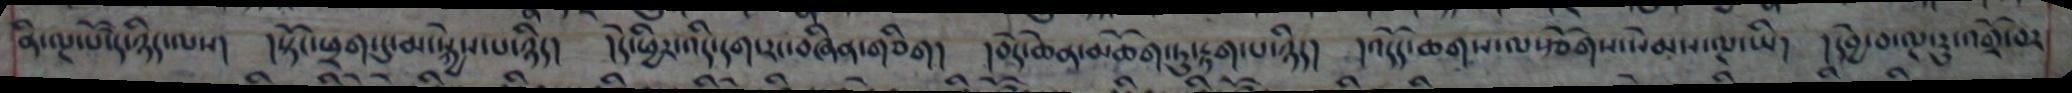ནི་ལྔ་པོ་དེ་ཉིད་ལས། །སྟོང་ཕྲག་དུ་མ་སྐྱེས་པ་ཉིད། །དེ་ཕྱིར་འདི་དག་རང་བཞིན་གཅིག། །བདེ་ཆེན་མཆོག་ཏུ་རྟག་པ་ཉིད། །འདོད་ཆགས་ལ་རྩོགས་སེམས་ལྔ་ཡི། །དབྱེ་བ་ལྔ་རུ་འགྲོ་བར
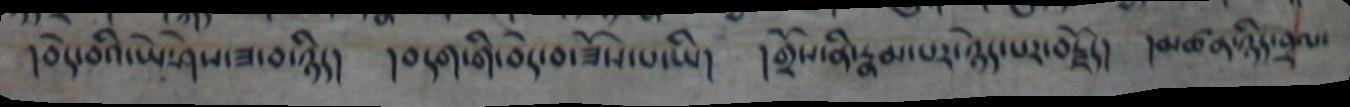།བདེ་བའི་ཡེ་ཤེས་ཟ་བ་ཉིད། །བདག་གི་བདེ་བ་བཟོས་པ་ཡི། །གྲོས་ནི་རྣམ་པར་ཉེད་པར་བརྗོད། །མཚན་ཉིད་བྲལ་
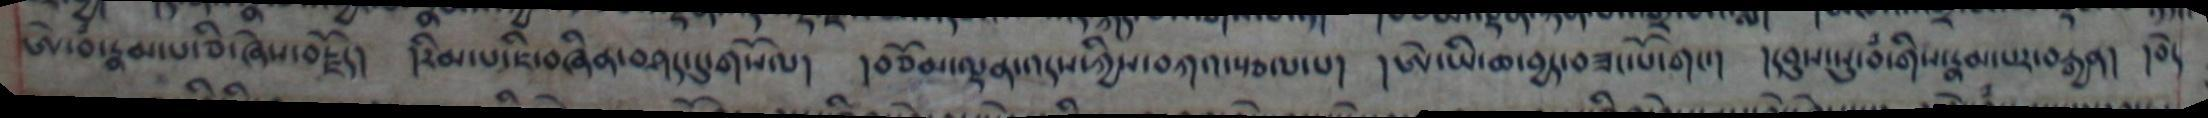ཨེ་བ་རྣམ་པ་ཅི་ཞེས་བརྗོད། །རིམ་པ་ཇི་བཞིན་བཤད་དུ་གསོལ། །བཅོམ་ལྡན་འདས་ཀྱིས་བཀའ་སྩལ་པ། །ཨེ་ཡི་ཆ་བྱད་བཟང་པོ་གང་། །དབུས་སུ་བཾ་གིས་རྣམ་པར་བརྒྱན། །བདེ
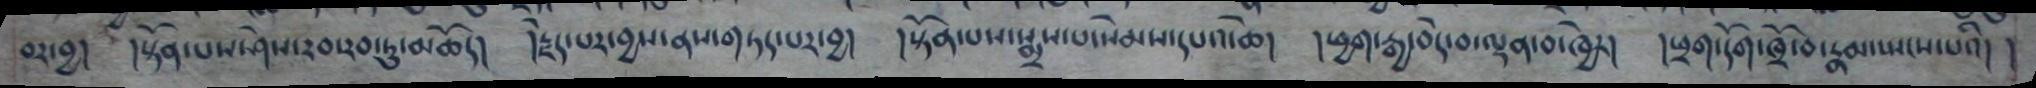བར་བྱ། །སྟོན་པས་ཤེས་རབ་རབ་ཏུ་མཆོད། །རྗེད་པར་བྱས་ནས་གཏད་པར་བྱ། །སྟོན་པས་སྨྲས་པ་སེམས་དཔའ་ཆེ། །ཕྱག་རྒྱ་བདེ་བ་ལྡན་བ་ཁྱེར། །ཕྲག་དོག་ཁྲོ་བ་རྣམ་སྤངས་པའི། །
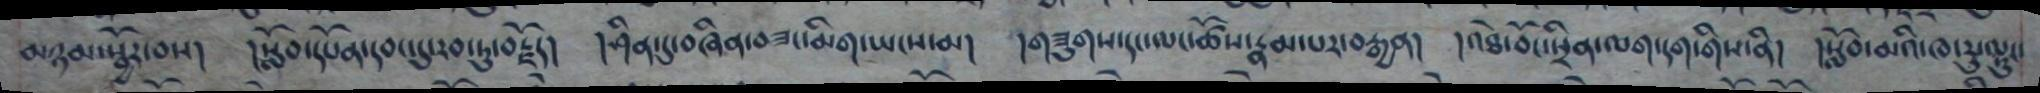མཉམ་སྦྱོར་བས། །སློབ་དཔོན་དབང་དུ་རབ་ཏུ་བརྗོད། །ཤིན་དུ་བཞིན་བཟང་མིག་ཡངས་མ། །གཟུགས་དང་ལང་ཚོས་རྣམ་པར་བརྒྱན། །འཐེ་བོང་སྲིན་ལག་དག་གིས་ནི། །སློབ་མའི་ཁ་རུ་ལྟུང་
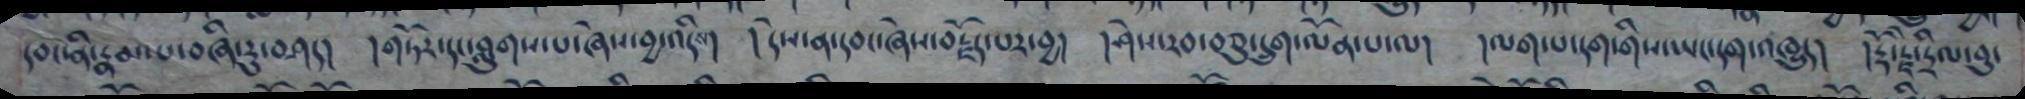དབང་ནི་རྣམ་པ་བཞི་རུ་བཤད། །གཏོར་དང་བླུགས་པ་ཞེས་བྱ་འདིས། །དེས་ན་དབང་ཞེས་བརྗོད་པར་བྱ། །ཤེས་རབ་བཅུ་དྲུག་ལོན་པ་ལ། །ལག་པ་དག་གིས་ཡང་དག་འཁྱུད། །རྡོ་རྗེ་དྲིལ་བུ་
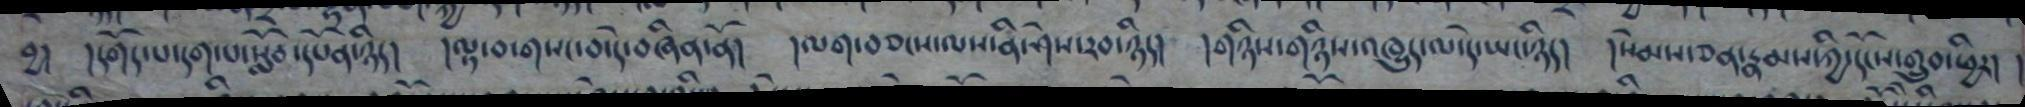བྱ། །དགོད་པ་དག་པ་སློབ་དཔོན་ཉིད། །ལྟ་བ་གསང་བ་དེ་བཞིན་ནོ། །ལག་བཅངས་ལས་ནི་ཤེས་རབ་ཉིད། །གཉིས་གཉིས་འཁྱུད་ལ་དེ་ཡང་ཉིད། །སེམས་ཅན་རྣམས་ཀྱི་དངོས་གྲུབ་ཕྱིར། །
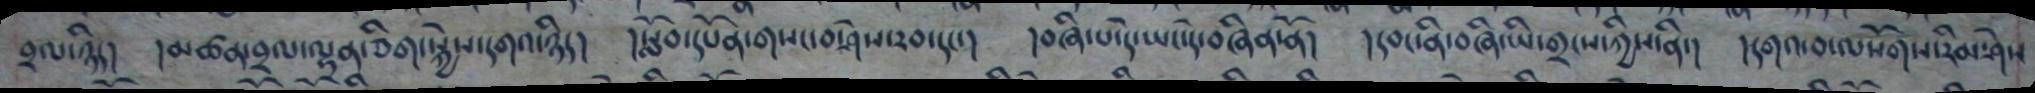བྲལ་ཉིད། །མཚན་བྲལ་ལྷན་ཅིག་སྐྱེས་དགའ་ཉིད། །སློབ་དཔོན་གསང་བ་ཤེས་རབ་དང་། །བཞི་པ་དེ་ཡང་དེ་བཞིན་ནོ། །དབང་ནི་བཞི་ཡི་གྲངས་ཀྱིས་ནི་། །དགའ་བ་ལསོགས་རིམ་ཤེས
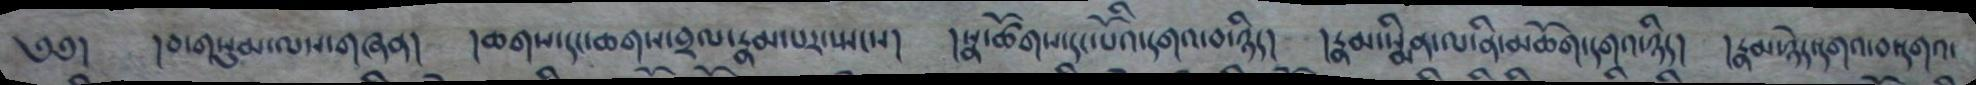༄༅། །བ་གསུམ་ལས་གཞན། །ཆགས་དང་ཆགས་བྲལ་རྣམ་པར་སྤངས། །སྣ་ཚོགས་དང་པོའི་དགའ་བ་ཉིད། །རྣམ་སྨིན་ལ་ནི་མཆོག་དགའ་ཉིད། །རྣམ་དག་དགའ་བ་དགའ་
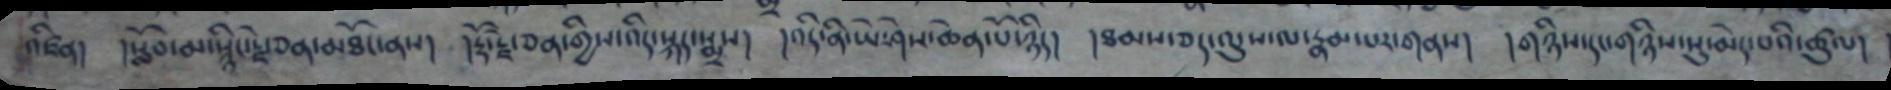འཛིན། །སློབ་མ་སྙིང་རྗེ་ཅན་མཐོང་ནས། །རྡོ་རྗེ་ཅན་གྱིས་འདི་སྐད་སྨྲས། །འདི་ནི་ཡེ་ཤེས་ཆེན་པོ་ཉིད། །ཐམས་ཅད་ལུས་ལ་རྣམ་པར་གནས། །གཉིས་དང་གཉིས་སུ་མེད་པའི་ཚུལ།
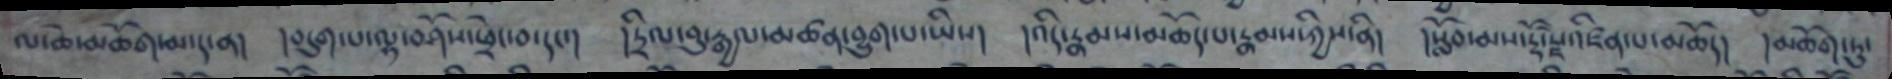ལ་ཆེ་མཆོག་མ་ད་ན། །བདུག་པ་ལྷ་བཤོས་ཕྲེང་བ་དང་། །དྲིལ་བུ་རྒྱལ་མཚན་བྱུག་པ་ཡིས། །འདི་རྣམས་མཆོད་པ་རྣམས་ཀྱིས་ནི། །སློབ་མས་རྡོ་རྗེ་འཛིན་པ་མཆོད། །མཆོག་ཏུ་
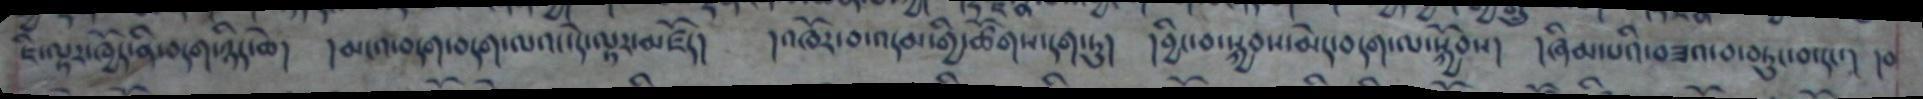ཇི་ལྟར་ཁྱོད་ནི་བདག་ཉིད་ཆེ། །མངའ་བདག་བདག་ལའང་དེ་ལྟར་མཛོད། །འཁོར་བ་འདམ་གྱི་ཚོགས་དག་ཏུ། །བྱིང་བ་སྐྱབས་མེད་བདག་ལ་སྐྱོབས། །ཞིམ་པའི་བཟའ་བ་བཏུང་བ་དང་། །བ
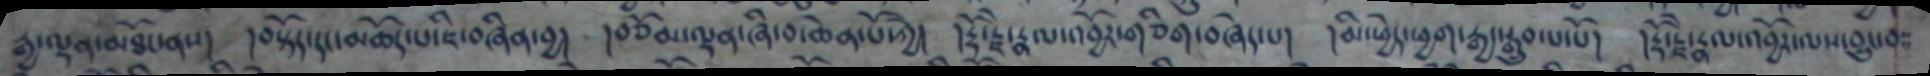རྒྱ་ལྡན་མཐོང་ནས། །བསྟོད་དང་མཆོད་པ་ཇི་བཞིན་བྱ། །བཅོམ་ལྡན་ཞི་བ་ཆེན་པོ་ཀྱེ། །རྡོ་རྗེ་རྣལ་འབྱོར་གཅིག་བཞེད་པ། །མི་ཕྱེད་ཕྱག་རྒྱ་སྒྲུབ་པ་པོ། །རྡོ་རྗེ་རྣལ་འབྱོར་ལས་བྱུང་བ
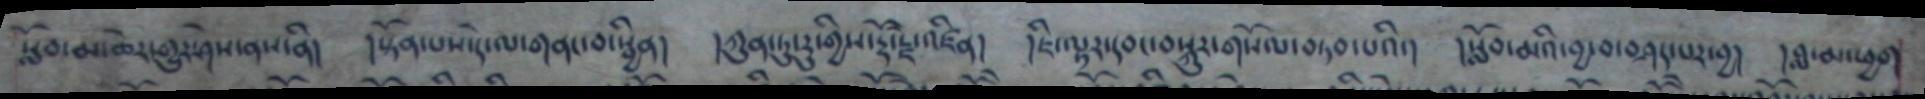སློབ་མ་ཆེར་གྱུར་ཤེས་ནས་ནི། །སྟོན་པས་དེ་ལ་གནང་བ་སྦྱིན། །ཀུན་ཏུ་རུ་གྱིས་རྡོ་རྗེ་འཛིན། །ཇི་ལྟར་དབང་བསྐུར་གསོལ་བཏབ་པའི་། །སློབ་མའི་བྱ་བ་བཤད་པར་བྱ། །བླ་མ་ཕྱག
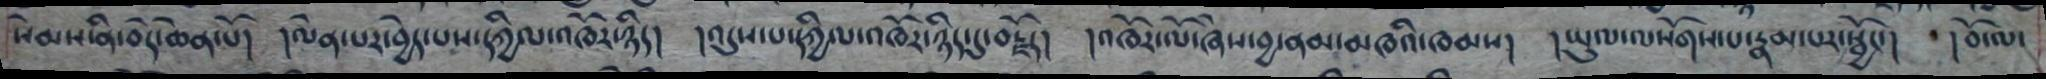སེམས་ནི་བདེ་ཆེན་པོ། །ལེན་པར་བྱེད་པས་དཀྱིལ་འཁོར་ཉིད། །འདུས་པ་དཀྱིལ་འཁོར་ཉིད་དུ་བརྗོད། །འཁོར་ལོ་ཞེས་བྱ་ནམ་མཁའི་ཁམས། །ཡུལ་ལསོགས་པ་རྣམ་པར་སྦྱོང་། །བོ་ལ་
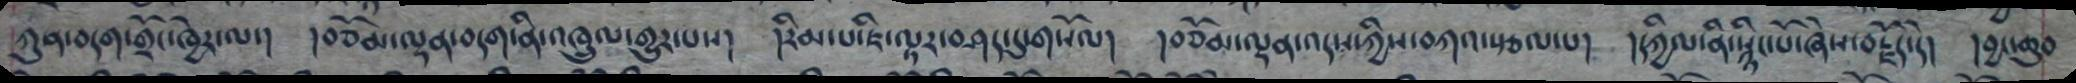ཀུན་བདག་གྲོང་ཁྱེར་ལ་། །བཅོམ་ལྡན་བདག་ནི་འཁྲུལ་གྱུར་པས། །རིམ་པ་ཇི་ལྟར་བཤད་དུ་གསོལ། །བཅོམ་ལྡན་འདས་ཀྱིས་བཀའ་སྩལ་པ། །དཀྱིལ་ནི་སྙིང་པོ་ཞེས་བརྗོད་དེ། །བྱང་ཆུབ
